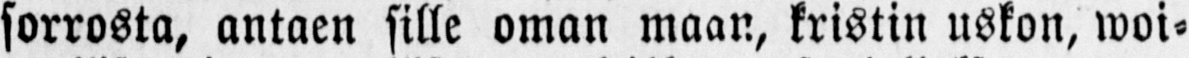sorrosta, antaen sille oman maan, kristin uskon, woi-
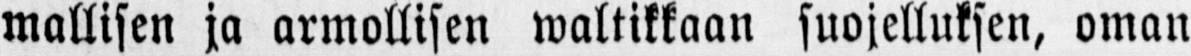mallisen ja armollisen waltikkaan suojelluksen, oman
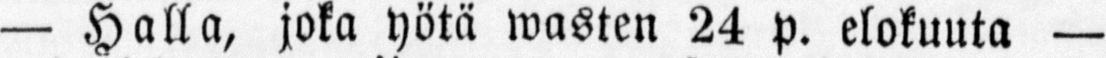— Halla, joka yötä wasten 24 p. elokuuta —
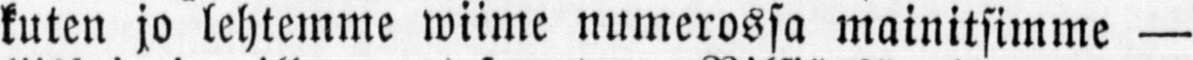kuten jo lehtemme wiime numerossa mainitsimme —
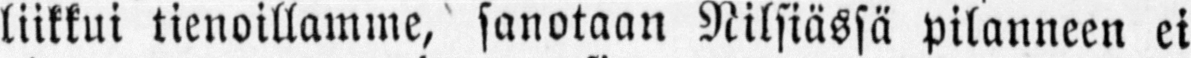liikkui tienoillamme, sanotaan Nilsiässä pilanneen ei
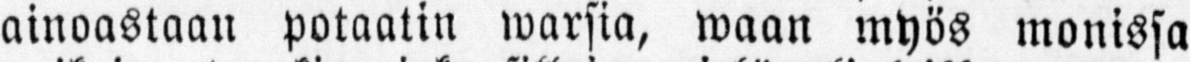ainoastaan potaatin warsia, waan myös monissa
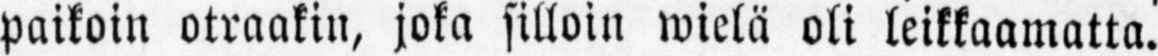paikoin otraakin, joka silloin wielä oli leikkaamatta.
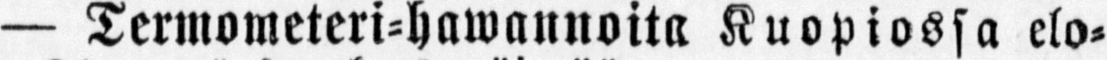— Termometeri-hawannoita Kuopiossa elo-
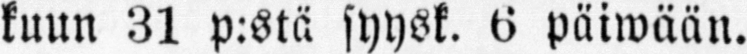kuun 31 p:stä syysk. 6 päiwään.
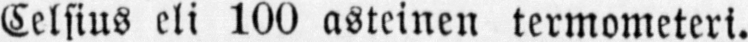Celsius eli 100 asteinen termometeri.
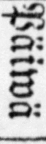Päiwä
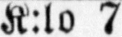K:lo 7
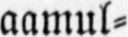aamul-
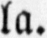la.
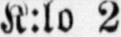K:lo 2
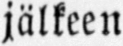jälkeen
